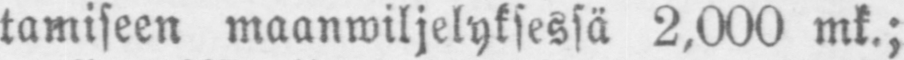tamiseen maanwiljelyksessä 2,000 mk.;
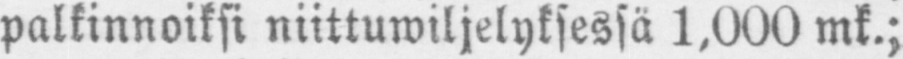palkinnoiksi niittuwiljelyksessä 1,000 mk.;
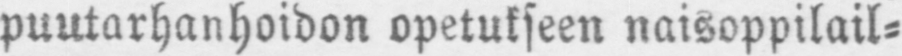puutarhanhoidon opetukseen naisoppilail-
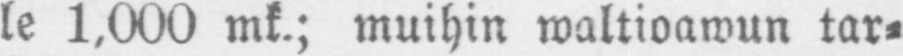le 1,000 mk.; muihin waltioawun tar-
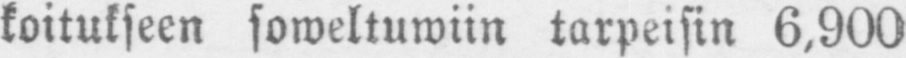koitukseen soweltuwiin tarpoisin 6,900
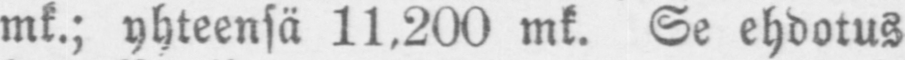mk.; yhteensä 11,200 mk. Se ehdotus
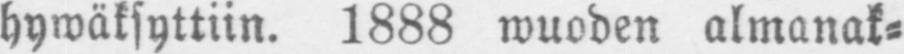hywäksyttiin. 1888 wuoden almanak-
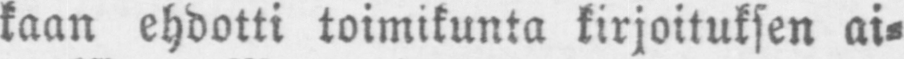kaan ehdotti toimikunta kirjoituksen ai-
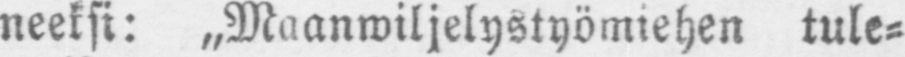neeksi: „Maanwiljelystyömiehen tule-
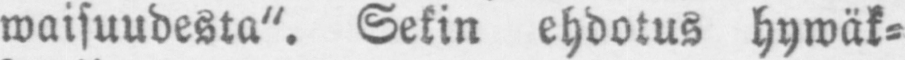waisuudesta". Sekin ehdotus hywäk-
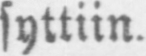syttiin.
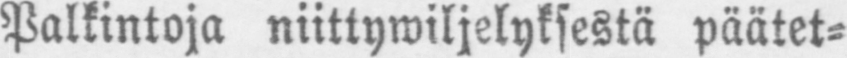Palkintoja niittywiljelyksestä päätet-
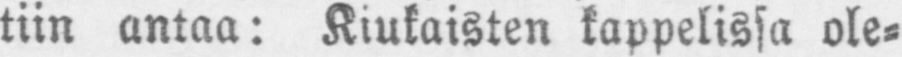tiin antaa: Kiukaisten kappelissa ole-
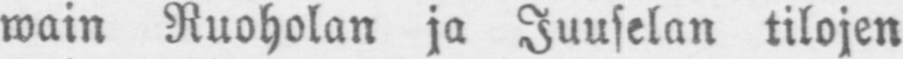wain Ruoholan ja Juuselan tilojen
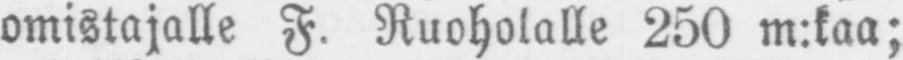omistajalle F. Ruoholalle 250 m:kaa;
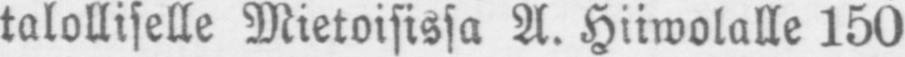talolliselle Mietoisissa A. Hiiwalalle 150
